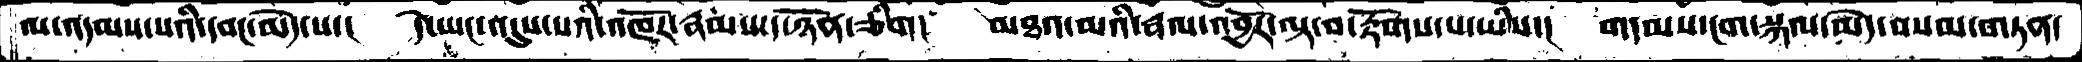ལ་འདམས་པའི་དབང་མེད་པ་།  དེ་ཡང་འདུས་པའི་འཁོར་རྣམས་ད་ཉོན་ཅིག།  མཐའ་མའི་རྣལ་འབྱོར་ལྟ་བ་རྟོགས་པ་ཡིས་།  གདམས་ངག་སྐལ་མེད་བསམ་གཏན་
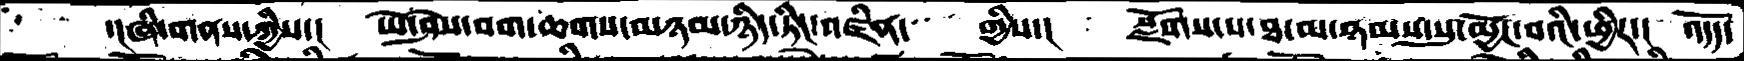་།ཞི་གནས་ཀྱིས་།  ཡེ་ཤེས་བག་ཆགས་མཉམ་ཉིད་ཏིང་འཛིན་   གྱིས་།  སྫོགས་པ་ཐ་མ་ཉམས་སུ་མྱོང་བའི་ཕྱིར་།  འདོད་
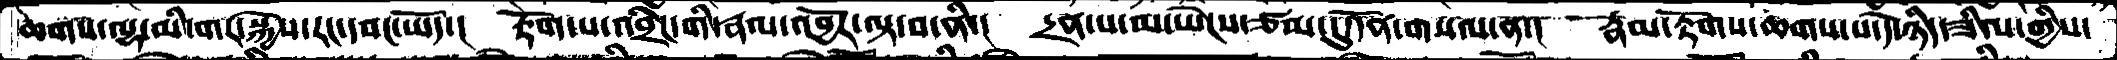ཆགས་ལྷ་མི་གར་སྐྱེས་རང་དབང་ཡོད་།  རྟོག་པ་འབྲིང་གི་རྣལ་འབྱོར་ལྟ་བ་ནི་།  དྲན་པ་མ་ཡེངས་ཙམ་དུ་དོན་གསལ་ན་།  རྣམ་རྟོགས་ཆགས་པ་དེ་ཉིད་ཟིལ་གྱིས་
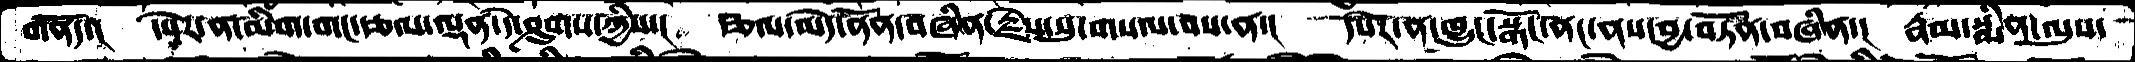གནོད་།  དཔེར་ན་མིག་གང་རྩལ་ལྡན་དེ་ཤུགས་ཀྱིས་།  རྩལ་མེད་ནོན་བཞིན་རྗེས་སུ་གསལ་བས་ན་།  དཔེར་ན་ཁྱུང་སྒོང་ནང་ནས་བྱ་བཏོན་བཞིན་།  རྣམ་སྨིན་ལུས་
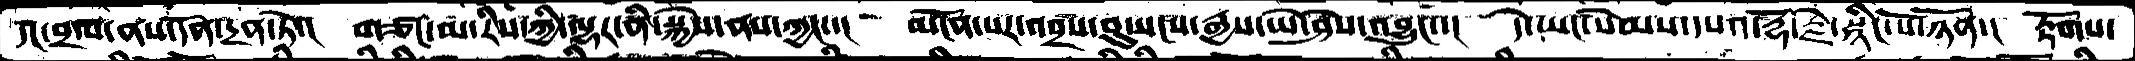་།བྲལ་ནས་དོན་དྲན་ཏེ་།  གཙང་མ་རིས་ཀྱི་ལྷར་ནི་སྐྱེས་ནས་ཀྱང་་།  མངོན་པར་འབྲས་བུ་སངས་རྒྱས་ཡེ་ཤེས་འབྱུང་་།  དེ་ཡང་སེམས་དཔའ་རྡོ་རྗེ་སྙིང་པོ་ཉོན་།  རྟོགས་
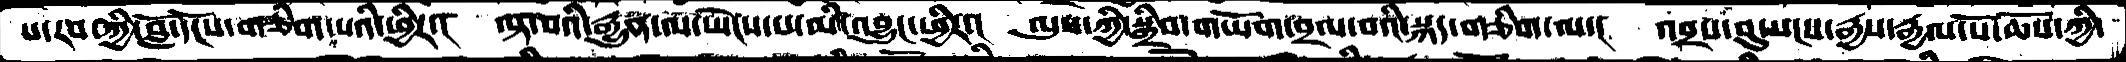པ་རབ་ཀྱི་བློ་དངོས་གཅིག་པའི་ཕྱིར་།  ལྟ་བའི་རྒྱུན་ལ་ཡེངས་པ་མི་འབྱུང་ཕྱིར་།  ལུས་ཀྱི་སྒྲིབ་གཡོག་བྲལ་བའི་སྐད་གཅིག་ལ་།  འབྲས་བུ་སངས་རྒྱས་རྒྱལ་པོ་ཆོས་ཀྱི་
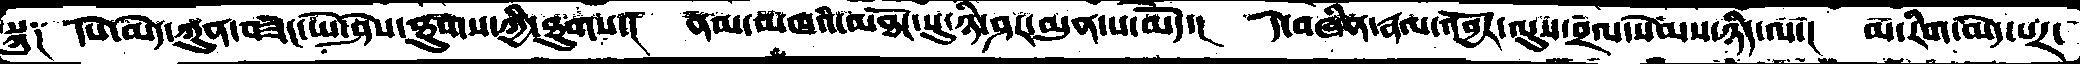སྐུ༑  དཔེ་མེད་ཀུན་བཟང་ཡེ་ཤེས་ཐུགས་ཀྱི་ཐུགས་།  ནམ་མཁའ་མཐོང་སུ་ཉི་ཤར་མུན་པ་མོད་།  དེ་བཞིན་རྣལ་འབྱོར་ལུས་བྲལ་སེམས་ཉིད་ལ་།  མ་རིག་མེད་པར་
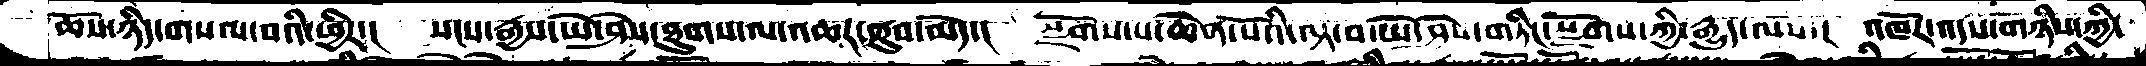ཆོས་ཉིད་གསལ་བའི་ཕྱིར་།  སངས་རྒྱས་ཡེ་ཤེས་ཐུགས་ལ་འཆར་ནུབ་མེད་།  སྫོགས་པ་ཆེན་པོའི་ལྟ་བ་ཡེ་ཤེས་གཏིང་སྫོགས་ཀྱི་རྒྱུད་ལས་།  འཁོར་འདས་གཉིས་ཀྱི་
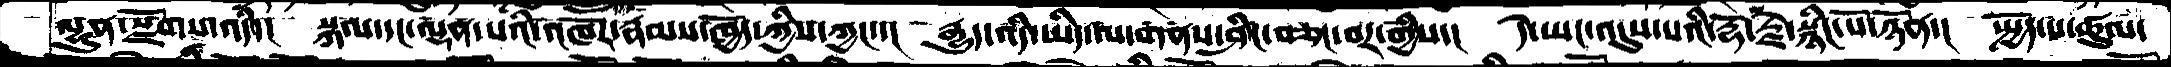ལྷུན་སྫོགས་འདི་།  སྐལ་དང་ལྡན་པའི་འཁོར་རྣམས་ཁྱོད་ཀྱིས་ཀྱང་།  རྒྱུད་འདི་ཡིད་ལ་གནས་ཤིང་བཅང་བར་གྱིས་།  དེ་ཡང་འདུས་པའི་རྡོ་རྗེ་སྙིང་པོ་ཉོན་།  སྤྱོད་པ་ཚུལ་
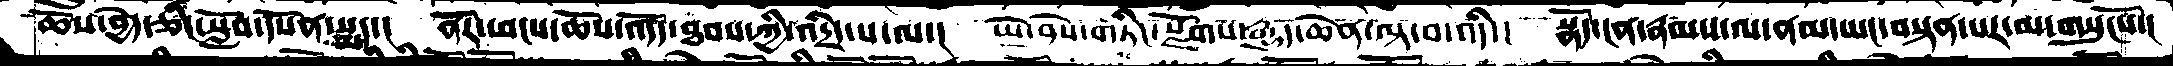ཆོས་བྱེད་ཅིང་སློབ་དཔོན་སྨད་།  ནོར་ཕངས་ཆོས་འདོད་ཐབས་ཀྱི་འདྲིད་པ་ལ་།  ཡེ་ཤེས་གཏིང་སྫོགས་རྒྱུད་ཆེན་ལྟ་བ་འདི་།  སྣོད་ངན་རྣམས་ལ་ནམ་ཡང་བསྟན་པར་མ་གསུངསོ་།
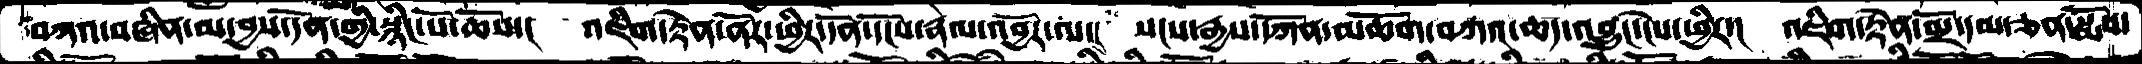བཀའ་བཞིན་མ་བྱས་དོན་གྱི་སྙིང་པོ་ཆོས་།   འཇིག་རྟེན་ནོར་ཕྱིར་དོན་དངོས་རྣལ་འབྱོར་ལ་།   སངས་རྒྱས་དཀོན་མཆོག་བཀའ་ཆད་འབྱུང་ངེས་ཕྱིར་།   འཇིག་རྟེན་མྲོ་དམ་ཅན་སྨོས་
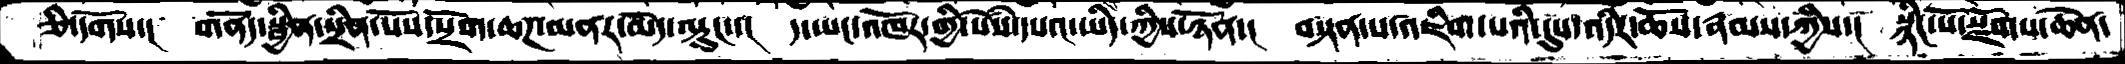ཅི་དགོས་།   གནོད་སྦྱིན་སྲིན་པོས་སྲོག་ཆཌ་མནར་མེད་ལྟུང་་།   ད་ཡང་འཁོར་གྱི་སེཾས་དཔའ་ཡིད་ཀྱིས་ཉོན་།  བསྟན་པ་འཇིག་པའི་དུས་འདིར་ཆོས་རྣམས་ཀྱིས་།  སྙིང་པོ་སྫོགས་ཆེན་
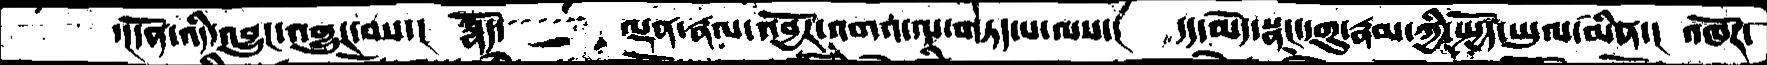་།དོན་འདི་འབྱུང་འགྱུར་བས་།   སྣོད་   ལྡན་རྣལ་འབྱོར་འགའ་ལ་གཏད་པ་ལས་།   དད་མེད་སྣང་དགུ་རྣམ་ཀྱི་སྤྱོད་ཡུལ་མིན་།  འཁོར་
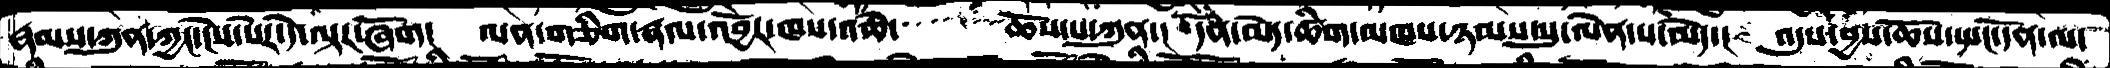རྣམས་ཀུན་ཀྱང་ངེས་པར་དེ་ལྟར་ཞོག།   ལན་གཅིག་རྣལ་འབྱོར་ཁས་འཆེ་    ཆོས་པ་ཀུན་།  དོན་མེད་ཚིག་མཁས་ཉམས་སུ་ལེན་པ་མེད་།  འདུས་བྱས་ཆོས་སྤང་དོན་ལ་
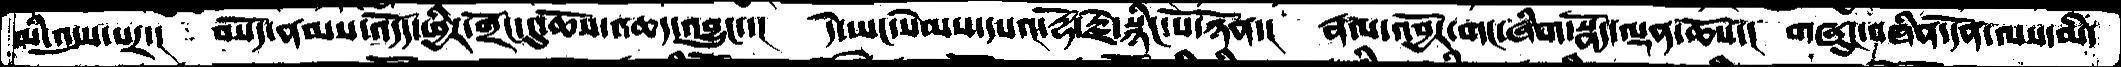མི་འདུས་པར་།   བསོད་ནམས་འདོད་ཕྱིར་གྲོང་དུ་ཆོས་འཆད་འབྱུང་་།  དེ་ཡང་སེམས་དཔའ་རྡོ་རྗེ་སྙིང་པོ་ཉོན་།  རྣལ་འབྱོར་གང་ཞིག་སྣོད་ལྡན་ཆོས་།  གཞུང་བཞིན་དོན་ལས་མི་
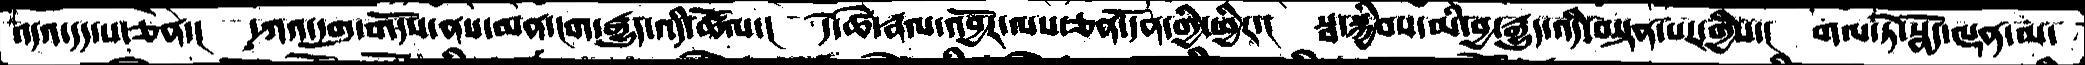འདའ་དད་པ་ཅན་།  དཀའ་དགུ་གདོས་ནས་མན་ངག་རྒྱུད་འདི་ཚོལ་།  དེ་ཚེ་རྣལ་འབྱོར་ལས་ཅན་དོན་གྱི་ཕྱིར་།  སྦ་སྐྱིབས་མི་བྱ་རྒྱུད་འདི་བསྟན་པར་གྱིས་།  གལ་ཏེ་སྣོད་ལྡན་མ་
